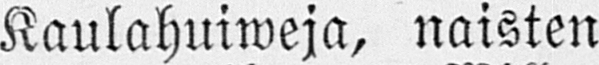Miesten Kaulahuiweja, naisten
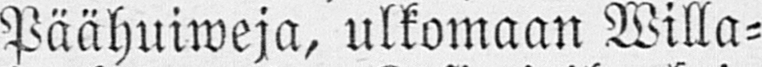Päähuiweja, ulkomaan Willa-
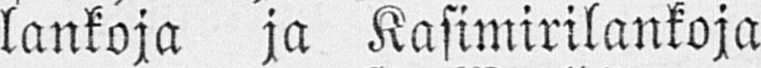lankoja ja Kasimirilaukoja
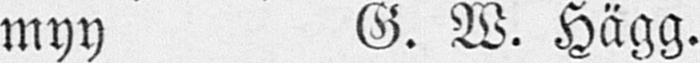myy G. W. Hägg.
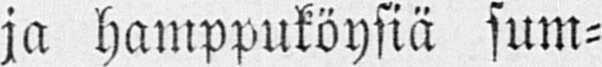Manilla- ja hamppuköysiä sum-
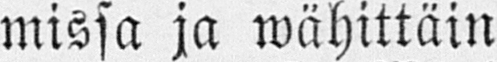missa ja wähittäin
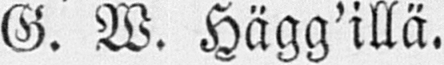G. W. Hägg'illä.
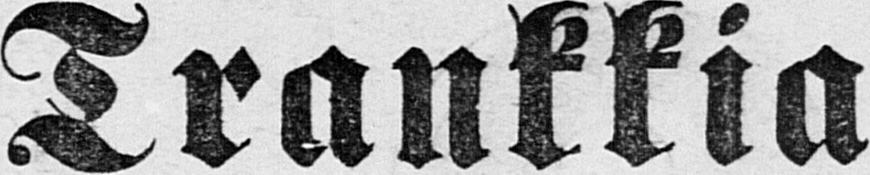Trankkia
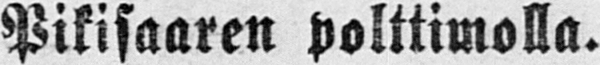Pikisaaren polttimolla.
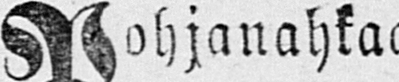Pohjanahkaa,
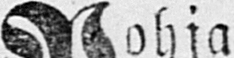Juhti-„
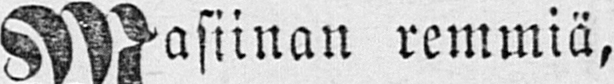Masiinan remmiä,
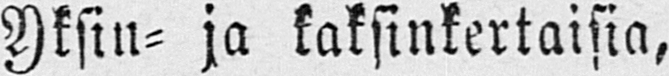Yksin- ja kaksinkertaisia,
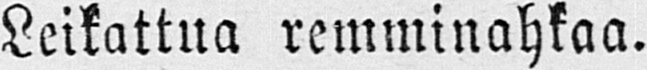Leikattua remminahkaa.
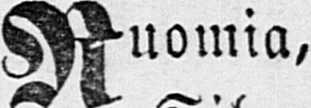Ruomia,
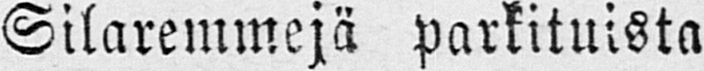Silaremmejä parkituista
